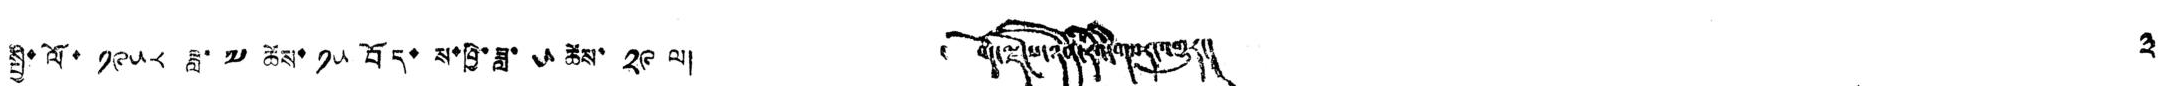སྤྱི་ལོ་ ༡༩༥༨ ཟླ་ ༧ ཚེས་ ༡༥ བོད་ ས་ཁྱི་ཟླ་ ༥ ཚེས་ ༢༩ ལ། ༄ བོད་ལྗོངས་ཉིན་རེའི་གསར་འགྱུར། ༣
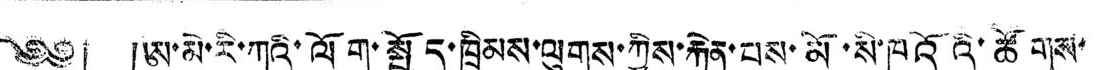༄༅། །ཨ་མེ་རི་ཀའི་ལོག་སྤྱོད་ཁྲིམས་ལུགས་ཀྱིས་རྐྱེན་པས་མོ་སི་ཁའོའི་ཚོགས་
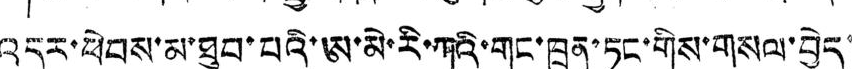འདུར་ཕེབས་མ་ཐུབ་པའི་ཨ་མེ་རི་ཀའི་གུང་ཁྲན་ཏང་གིས་གསལ་བྱེད་
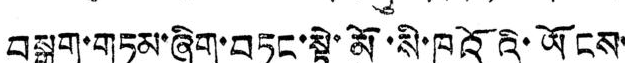བསྒྲག་གཏམ་ཞིག་བཏང་སྟེ་མོ་སི་ཁའོའི་ཡོངས་
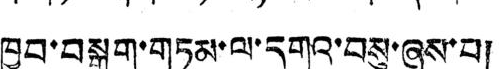ཁྱབ་བསྒྲག་གཏམ་ལ་དགའ་བསུ་ཞུས་པ།
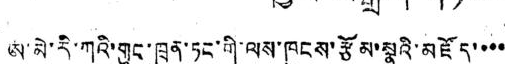ཨ་མེ་རི་ཀའི་གུང་ཁྲན་ཏང་གི་ལས་ཁུངས་རྩོམ་སྣའི་མཛོད་་་་
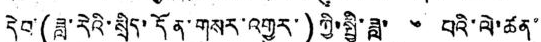དེབ་(ཟླ་རེའི་སྲིད་དོན་གསར་འགྱུར་)གྱི་སྤྱི་ཟླ་ ༦ པའི་ལེ་ཚན་
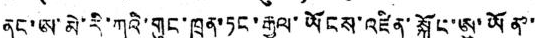ནང་ཨ་མེ་རི་ཀའི་གུང་ཁྲན་ཏང་རྒྱལ་ཡོངས་འཛིན་སྐྱོང་ཨུ་ཡོན་་
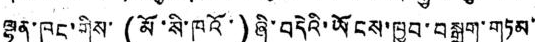ལྷན་ཁང་གིས་ (མོ་སི་ཁའོ་) ཞི་བདེའི་ཡོངས་ཁྱབ་བསྒྲག་གཏམ་
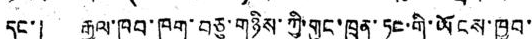དང་། རྒྱལ་ཁབ་ཁག་བཅུ་གཉིས་ཀྱི་གུང་ཁྲན་ཏང་གི་ཡོངས་ཁྱབ་་
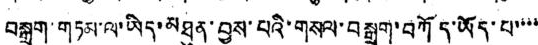བསྒྲག་གཏམ་ལ་ཡིད་མཐུན་བྱས་པའི་གསལ་བསྒྲག་བཀོད་ཡོད་པ་་་་
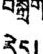རེད།
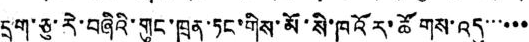དྲུག་ཅུ་རེ་བཞིའི་གུང་ཁྲན་ཏང་གིས་མོ་སི་ཁའོར་ཚོགས་འདུ་་་་་་
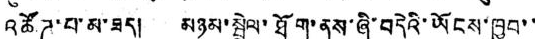འཚོཊ་པ་མ་ཟད། མཉམ་སྦྲེལ་ཐོག་ནས་ཞི་བདེའི་ཡོངས་ཁུབ་་
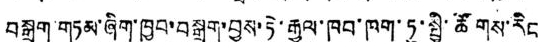བསྒྲག་གཏམ་ཞིག་ཁྱབ་བསྒྲག་བྱས་ཏེ་རྒྱལ་ཁབ་ཁག་ཏུ་སྤྱི་ཚོགས་རིང
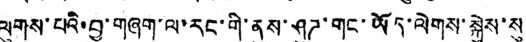ལུགས་པའི་བྱ་གཞག་ལ་རང་གི་ནུས་ཤུཊ་གང་ཡོད་ལེགས་སྐྱེས་སུ་
